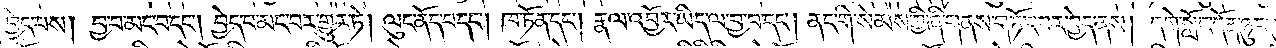བྱེད་པས། བྱ་བ་མང་བ་དང༌། བྱེད་པ་མང་བར་གྱུར་ཏེ། ལུང་ནོད་པ་དང༌། ཁ་ཏོན་དང༌། རྣལ་འབྱོར་ཡིད་ལ་བྱ་བ་དང༌། ནང་གི་སེམས་ཀྱི་ཞི་གནས་གཏོང་བར་བྱེད་ནས། དགེ་སློང་དོན་ཉུང་ངུ་དག།
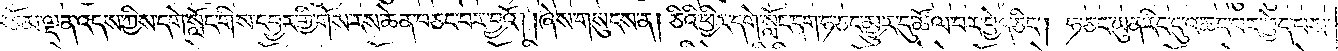བཅོམ་ལྡན་འདས་ཀྱིས་དགེ་སློང་གིས་དབྱར་གྱི་གོས་རས་ཆེན་བཅང་བར་བྱའོ། །ཞེས་གསུངས་ན། ཅིའི་ཕྱིར་དགེ་སློང་དག་ཧ་ཅང་མྱུར་དུ་ཚོལ་བར་བྱེད་ཅིང༌། ཧ་ཅང་ཡུན་རིང་དུ་འཆང་བར་བྱེད་པས་
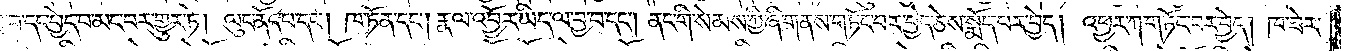བྱ་བ་དང་བྱེད་པ་མང་བར་གྱུར་ཏེ། ལུང་ནོད་པ་དང༌། ཁ་ཏོན་དང༌། རྣལ་འབྱོར་ཡིད་ལ་བྱ་བ་དང༌། ནང་གི་སེམས་ཀྱི་ཞི་གནས་གཏོང་བར་བྱེད་ཅེས་སྨོད་པར་བྱེད། འཕྱར་ཀ་གཏོང་བར་བྱེད། ཁ་ཟེར་
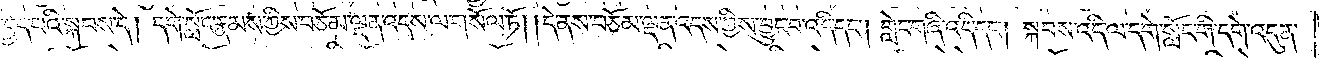པར་བྱེད་པའི་སྐབས་དེ། དགེ་སློང་རྣམས་ཀྱིས་བཅོམ་ལྡན་འདས་ལ་གསོལ་ཏོ། །དེ་ནས་བཅོམ་ལྡན་འདས་ཀྱིས་བྱུང་བ་འདི་དང༌། གླེང་གཞི་འདི་དང༌། སྐབས་འདི་ལ་དགེ་སློང་གི་དགེ་འདུན་
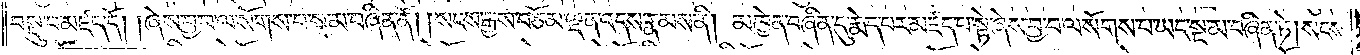བསྡུ་བ་མཛད་དོ། །ཞེས་བྱ་བ་ལ་སོགས་པ་སྔ་མ་བཞིན་ནོ། །སངས་རྒྱས་བཅོམ་ལྡན་འདས་རྣམས་ནི། མཁྱེན་བཞིན་དུ་རྨེད་པར་མཛད་པ་སྟེ་ཞེས་བྱ་བ་ལ་སོགས་པ་ཡང་སྔ་མ་བཞིན་ཏེ། སངས་
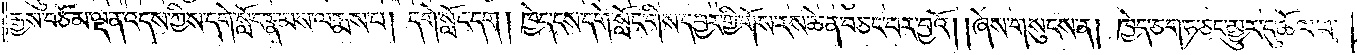རྒྱས་བཅོམ་ལྡན་འདས་ཀྱིས་དགེ་སློང་རྣམས་ལ་རྨས་པ། དགེ་སློང་དག །ཁྱེད་ངས་དགེ་སློང་གིས་དབྱར་གྱི་གོས་རས་ཆེན་བཅང་བར་བྱའོ། །ཞེས་གསུངས་ན། ཁྱེད་ཅག་ཧ་ཅང་མྱུར་དུ་ཚོལ་བ་
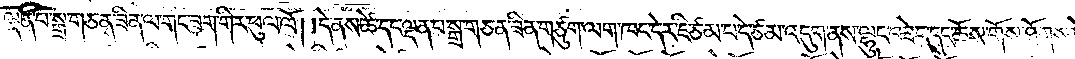ལྡན་པ་སྒྲ་གཅན་ཟིན་ལ་གང་ཟག་གིར་ཕུལ་ལོ། །དེ་ནས་ཚེ་དང་ལྡན་པ་སྒྲ་གཅན་ཟིན་གཙུག་ལག་ཁང་དེར་ཇི་ཙམ་པ་དེ་ཙམ་འདུག་ནས་ལྷུང་བཟེད་དང་ཆོས་གོས་ཐོགས་ཏེ་ལྗོངས་རྒྱུར་སོང་ངོ༌། །ཁྱིམ་བདག་དེས་
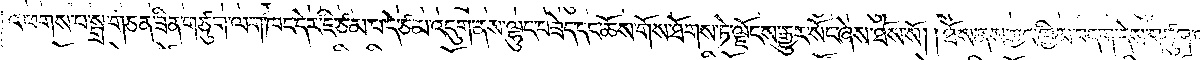འཕགས་པ་སྒྲ་གཅན་ཟིན་གཙུག་ལག་ཁང་དེར་ཇི་ཙམ་པ་དེ་ཙམ་འདུག་ནས་ལྷུང་བཟེད་དང་ཆོས་གོས་ཐོགས་ཏེ་ལྗོངས་རྒྱུར་སོང་ཞེས་ཐོས་སོ། །ཐོས་ནས་ཀྱང་ཁྱིམ་བདག་དེས་གཙུག་ལག་ཁང་དེ་དགེ་འདུན་ལ་
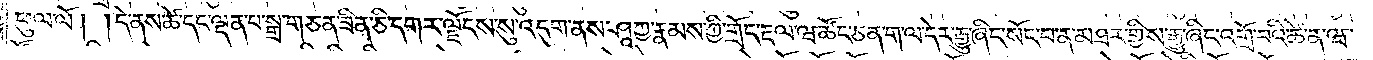ཕུལ་ལོ། །དེ་ནས་ཚེ་དང་ལྡན་པ་སྒྲ་གཅན་ཟིན་ཅི་དགར་ལྗོངས་སུ་འདུག་ནས་ཤཱཀྱ་རྣམས་ཀྱི་གྲོང་རྡལ་ཝ་ཚོང་ཅན་ག་ལ་དེར་རྒྱུ་ཞིང་སོང་བ་ན་མཐར་གྱིས་རྒྱུ་ཞིང་འགྲོ་བའི་ཚེ་ན་ཝ་
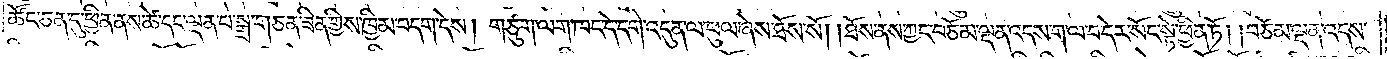ཚོང་ཅན་དུ་ཕྱིན་ནས་ཚེ་དང་ལྡན་པ་སྒྲ་གཅན་ཟིན་གྱིས་ཁྱིམ་བདག་དེས། གཙུག་ལག་ཁང་དེ་དགེ་འདུན་ལ་ཕུལ་ཞེས་ཐོས་སོ། །ཐོས་ནས་ཀྱང་བཅོམ་ལྡན་འདས་ག་ལ་བ་དེར་སོང་སྟེ་ཕྱིན་ཏོ། །བཅོམ་ལྡན་འདས་
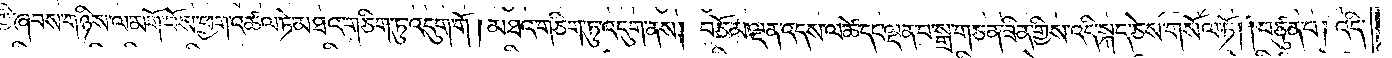ཀྱི་ཞབས་གཉིས་ལ་མགོ་བོས་ཕྱག་འཚལ་ཏེ་མཐའ་གཅིག་ཏུ་འདུག་གོ །མཐའ་གཅིག་ཏུ་འདུག་ནས། བཅོམ་ལྡན་འདས་ལ་ཚེ་དང་ལྡན་པ་སྒྲ་གཅན་ཟིན་གྱིས་འདི་སྐད་ཅེས་གསོལ་ཏོ། །བཙུན་པ། འདི་
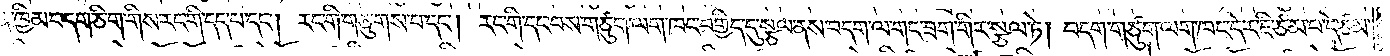ན་ཁྱིམ་བདག་ཅིག་གིས་རང་གི་དད་པ་དང༌། རང་གི་གཅུགས་པ་དང༌། རང་གི་དད་པས་གཙུག་ལག་ཁང་བགྱིད་དུ་སྩལ་ནས་བདག་ལ་གང་ཟག་གིར་སྩལ་ཏེ། བདག་གཙུག་ལག་ཁང་དེར་ཇི་ཙམ་པ་དེ་ཙམ་
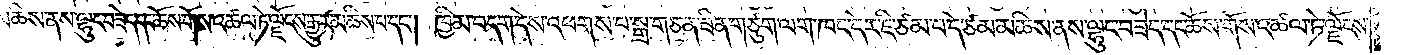མཆིས་ནས་ལྷུང་བཟེད་དང་ཆོས་གོས་འཚལ་ཏེ་ལྗོངས་རྒྱུར་མཆིས་པ་དང༌། ཁྱིམ་བདག་དེས་འཕགས་པ་སྒྲ་གཅན་ཟིན་གཙུག་ལག་ཁང་དེར་ཇི་ཙམ་པ་དེ་ཙམ་མཆིས་ནས་ལྷུང་བཟེད་དང་ཆོས་གོས་འཚལ་ཏེ་ལྗོངས་
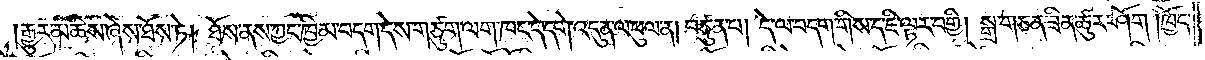རྒྱུར་མཆིས་ཞེས་ཐོས་ཏེ། ཐོས་ནས་ཀྱང་ཁྱིམ་བདག་དེས་གཙུག་ལག་ཁང་དེ་དགེ་འདུན་ལ་ཕུལ་ན། བཙུན་པ། དེ་ལ་བདག་གིས་ད་ཇི་ལྟར་བགྱི། སྒྲ་གཅན་ཟིན་ཚུར་ཤོག །ཁྱོད་
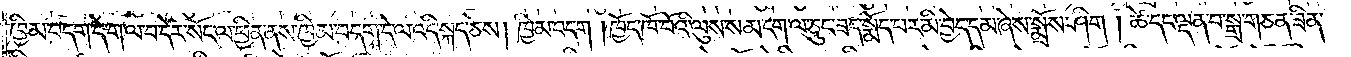ཁྱིམ་བདག་དེ་ག་ལ་བ་དེར་སོང་ལ་ཕྱིན་ནས་ཁྱིམ་བདག་དེ་ལ་འདི་སྐད་ཅེས། ཁྱིམ་བདག །ཁྱོད་ཁོ་བོའི་ལུས་སམ་ངག་ལ་ཅུང་ཟད་སྨོད་པར་མི་བྱེད་དམ་ཞེས་སྨྲོས་ཤིག །ཚེ་དང་ལྡན་པ་སྒྲ་གཅན་ཟིན་
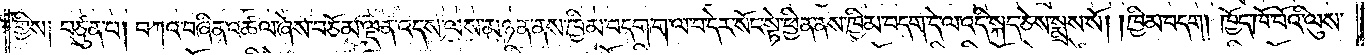གྱིས། བཙུན་པ། བཀའ་བཞིན་འཚལ་ཞེས་བཅོམ་ལྡན་འདས་ལས་མཉན་ནས་ཁྱིམ་བདག་ག་ལ་བ་དེར་སོང་སྟེ་ཕྱིན་ནས་ཁྱིམ་བདག་དེ་ལ་འདི་སྐད་ཅེས་སྨྲས་སོ། །ཁྱིམ་བདག། ཁྱོད་ཁོ་བོའི་ལུས་
